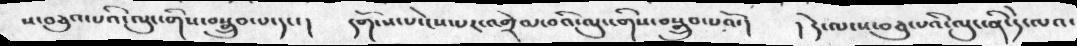ས་བཅུའ་པའི་ལུང་གིས་བསྒྲུབ་པ་དང་།  དགོངས་པ་ངེས་པར་འགྲེལ་བའི་ལུང་གིས་བསྒྲུབ་པའོ་།  ། དེ་ལ་ས་བཅུ་པའི་ལུང་ནི་དེ་ལའ་
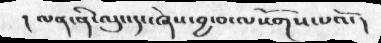། ལན་ནི་ལུང་དང་ཞེས་བྱ་བ་ལསོགས་པའོ་།
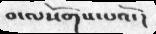བ་ལསོགས་པའོ་།
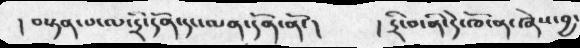། བསྟན་པ་ལ་དྲི་དོན་དང་ལན་དོན་ནོ་།  ། དྲི་བ་ནི་དེ་ཁོ་ན་ཞེས་བྱ་
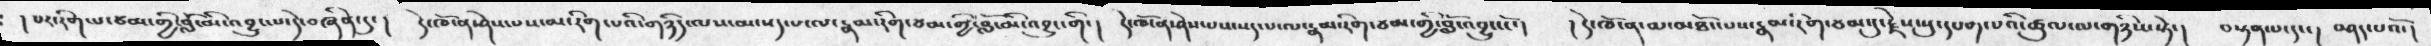། པར་རིག་པ་ཙམ་གྱི་བློ་མི་འབྱུང་པ་དེ་བཞིན་དུ་།  དེ་ཁོ་ན་ཤེས་པས་མ་རིག་པའི་གཉིད་ལས་མ་སད་པ་ལ་རྣམ་རིག་ཙམ་གྱི་བློ་མི་འབྱུང་གི་།  དེ་ཁོ་ན་ཤེས་པས་སད་པ་ལ་རྣམ་རིག་ཙམ་གྱི་བློ་འབྱུང་ངོ་།  ། དེ་ཁོ་ན་མ་མཐོང་པས་རྣམ་རིག་ཙམ་དུ་རྗེས་སུ་དཔག་པའི་ཚུལ་ལ་གཉིས་སྟེ་།  བསྟན་པ་དང་།  བཤད་པའོ་།
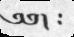༄༅། ༴
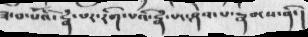ཟ་བ་པོའི་རྣཾ་པར་རིག་པའི་རྣཾ་པར་ཤེས་པ་རྣམས་ནི་།
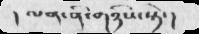།   ལན་ནི་གཉིས་སྟེ་།
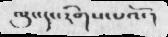ལུང་དང་རིགས་པའོ་།
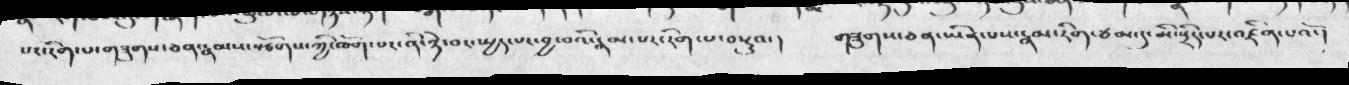པར་རིག་པ་གཟུགས་ཅན་རྣམས་སྩོགས་ཀྱི་ཁོག་པར་ནི་ཉེ་བར་སྤྱད་པར་བྱ་བའི་རྣམ་པར་རིག་པ་བསྡུའ།  གཟུགས་ཅན་ཡིན་པས་རྣམ་རིག་ཙམ་དུ་མི་སྲིད་པར་འཛིན་པའོ་།
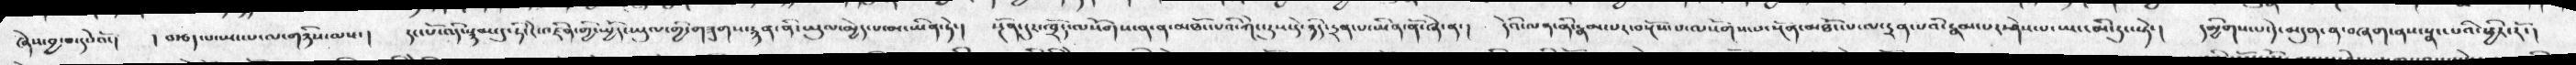ཞེས་བྱ་བ་དཔེའོ་།  ། བརྩད་པ་སྤང་པ་ལ་གཉིས་ལས་།  དང་པོ་འདི་སྙམ་དུ་ཏི་ངེ་འཛིན་གྱི་སྤྱོད་ཡུལ་གྱི་གཟུགས་རྙན་ནི་ཡུལ་མྱེད་པ་མ་ཡིན་ཏེ་།  སྔོན་དུར་ཁྲོད་ལསོགས་༡་༡་མཐོང་པའི་ཀེང་རུས་དེ་ཉིད་དྲན་པ་ཡིན་ནོ་ཞེ་ན་།  དེའི་ལན་ནི་རྣམ་པར་བསྔོས་པ་ལསོགས་པ་སྔོན་མཐོང་པ་ལ་དྲན་པའི་རྣམ་པར་ཤེས་པ་ཡང་མི་རུང་སྟེ་།  དམྱིགས་པ་དེ་མདུན་ན་བཞག་ནས་སྣང་པའི་ཕྱིར་རོ་།
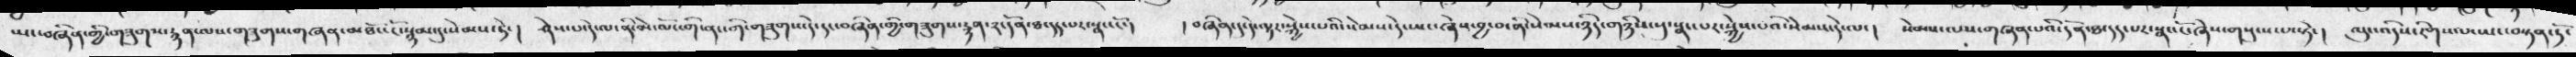ཡང་བཞིན་གྱི་གཟུགས་རྙན་ལས་གཟུགས་གཞན་མཐོང་ངོ་སྙམ་དུ་སེམས་ཏེ་།  ཤེས་པ་དེ་ལ་ནི་མེ་ལོང་གི་ནང་གི་གཟུགས་དེ་དང་བཞིན་གྱི་གཟུགས་རྙན་༢་དོན་ཐ་དད་པར་སྣང་ངོ་།   །  བཞིན་དུ་དེ་ལྟར་སྐྱེས་པའི་སེམས་དེ་ཡང་ཞེས་བྱ་བ་ནི་སེམས་ཉིད་གཉིས་སུ་སྣང་པར་སྐྱེས་པའི་སེམས་དེ་ལ་།  སེམས་ལས་གཞན་པའི་དོན་ཐ་དད་པར་སྣང་ངོ་ཞེས་གསུངས་པ་སྟེ་།   ལུང་འདིས་རིགས་པ་ཡང་བསྟན་ཏོ་
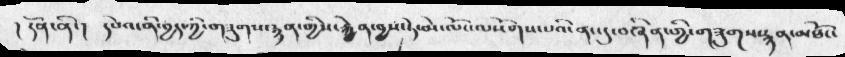། དོན་ནི་། དཔེའ་ནི་བྱད་ཀྱི་གཟུགས་རྙན་གྱིས་རྐྱེན་བྱས་ཏེ་མེ་ལོང་ལསོགས་པའི་ནང་དུ་བཞིན་གྱི་གཟུགས་རྙན་མཐོང་
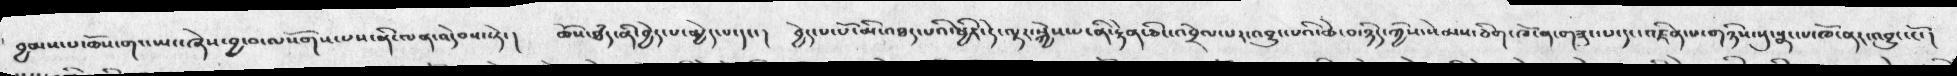བྱམས་པ་ཆོས་གང་ཡང་ཞེས་བྱ་བ་ལསོགས་པས་ནི་ལན་འདེབས་ཏེ་།   ཆོས་ཐཾད་ནི་བྱེད་པ་མྱེད་པ་དང་།  བྱེད་པ་པོ་མི་འཐད་པའི་ཕྱིར་དེ་ལྟར་སྐྱེས་པ་ནི་རྟེན་ཅིང་འབྲེལ་པར་འབྱུང་པའི་ཆེ་བ་ཉིད་ཀྱིས་སེམས་ཅིག་ཁོ་ན་གཟུང་པ་དང་འཛིན་པ་གཉིས་སུ་སྣང་པ་ཁོ་ནར་འབྱུང་ངོ་།
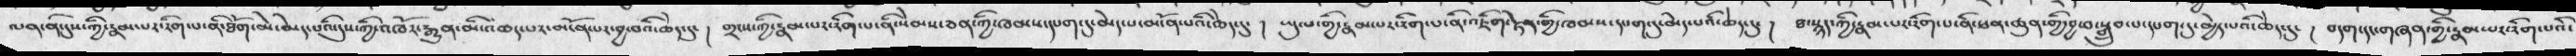ལན་ནི་དུས་གྱི་རྣམ་པར་རིག་པ་ནི་ཐོག་མེ་མེད་པའི་དུས་གྱི་འཁོར་རྒྱུན་མི་འཆད་པར་མངོན་པར་བྱ་བའི་ཆེད་དུ་།   གྲངས་གྱི་རྣམ་པར་རིག་པ་ནི་སེམས་ཅན་གྱི་ཁམས་དཔག་དུ་མེད་པ་མངོན་པའི་ཆེད་དུ་།  ཡུལ་གྱི་རྣམ་པར་རིག་པ་ནི་འཇིག་རྟེན་གྱི་ཁམས་དཔག་དུ་མེད་པའི་ཆེད་དུ་།    ཐ་སྙད་ཀྱི་རྣམ་པར་རིག་པ་ནི་ཕན་ཚུན་གྱི་བྱ་བ་སྒྲུབ་པ་དཔག་དུ་མྱེད་པའི་ཆེད་དུ་ །  བདག་དང་གཞན་གྱི་རྣམ་པར་རིག་པའི་
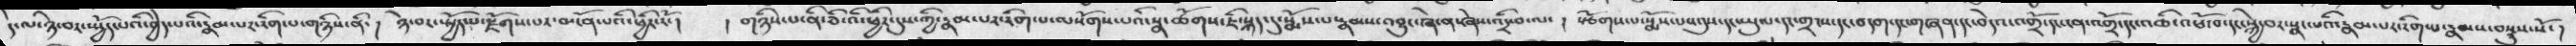དེ་ལ་ཉེ་བར་སྤྱོད་པའི་བྱེད་པའི་རྣམ་པར་རིག་པ་གཉིས་ནི་།  ཉེ་བར་སྤྱོད་པ་རྗོགས་པར་མངོན་པའི་ཕྱིར་རོ་།   །  གཉིས་པ་ནི་ཅི་འི་ཕྱིར་དུས་གྱི་རྣམ་པར་རིག་པ་ལསོགས་པའི་སྣ་ཚོགས་ཇི་སྐད་དུ་སྨོས་པ་རྣམས་འབྱུང་ཞེ་ན་ཞེས་འདྲི་བ་ལ་ །  སཅོགས་པ་སྨོས་པས་དུས་དང་ཡུལ་དང་གྲངས་དང་བདག་དང་གཞན་དང་བདེ་འགྲོ་དང་ངན་འགྲོ་དང་འཆི་འཕོ་བ་དང་སྐྱེ་བར་སྣང་པའི་རྣམ་པར་རིག་པ་རྣམས་བསྡུས་སོ་།
